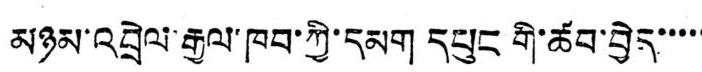མཉམ་འབྲེལ་རྒྱལ་ཁབ་ཀྱི་དམག དཔུང གི་ཚབ་བྱེད་་་་་
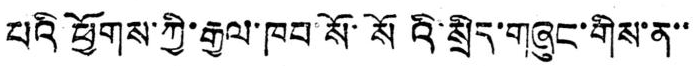པའི ཕྱོགས་ཀྱི་རྒྱལ་ཁབ་སོ་སོའི་སྲིད་གཞུང་གིས་ན་་་
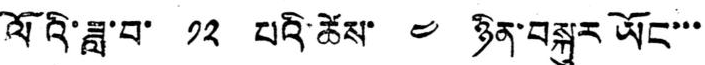ལོའི་ཟླ་བ་ ༡༢ པའི་ཚེས་ ༤ ཉིན་བསྐུར ཡོང་་་
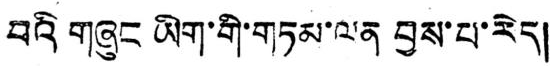བའི གཞུང ཡིག་གི་གཏམ་ལན བྱས་པ་རེད།
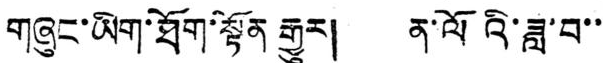གཞུང་ཡིག་ཐོག་སྟོན རྒྱུར། ན་ལོའི་ཟླ་བ་་
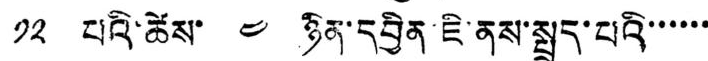༡༢ པའི་ཚེས་ ༤ ཉིན་དབྱིན ཇི་ནས་སྤྲད་པའི་་་་་་
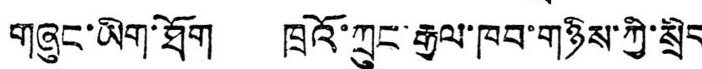གཞུང་ཡིག་ཐོག ཁྲའོ་ཀྲུང་རྒྱལ་ཁབ་གཉིས་ཀྱི་སྲིད
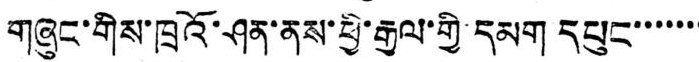གཞུང་གིས་ཁྲའོ་ཤན་ནས་ཕྱི་རྒྱལ་གྱི་དམག དཔུང་་་་་་་
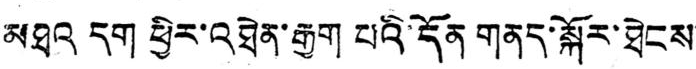མཐའ དག ཕྱིར་འཐེན་རྒྱག པའི་དོན གནད་སྐོར་ཐེངས་
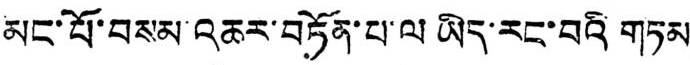མང་པོ་བསམ་འཆར་བཏོན་པ་ལ ཡིད་རང་བའི གཏམ་
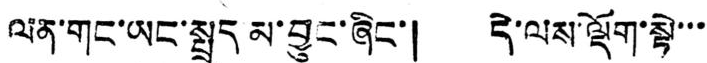ལན་གང་ཡང་སྤྲད མ་བྱུང་ཞིང་། དེ་ལས་ལྡོག་སྟེ་་་
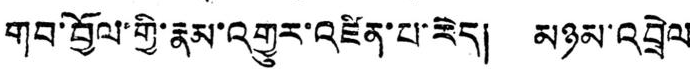གབ་བྱོལ་གྱི་རྣམ་འགྱུར་འཛིན་པ་རེད། མཉམ་འབྲེལ་
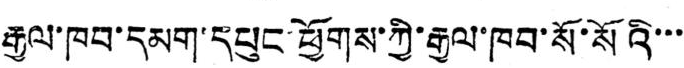རྒྱལ་ཁབ་དམག་དཔུང ཕྱོགས་ཀྱི་རྒྱལ་ཁབ་སོ་སོའི་་་་
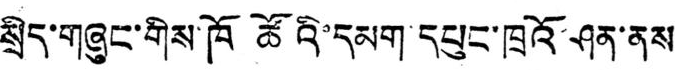སྲིད་གཞུང་གིས་ཁོ ཚོའི་དམག དཔུང་ཁྲའོ ཤན་ནས་་
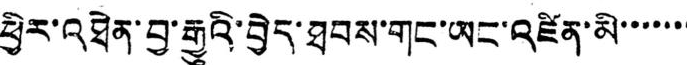ཕྱིར་འཐེན་བྱ་རྒྱུའི་བྱེད་ཐབས་གང་ཡང་འཛིན་མི་་་་་་་
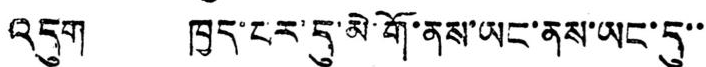འདུག ཁྱད་པར་དུ་མེ་གོ་ནས་ཡང་ནས་ཡང་དུ་་
